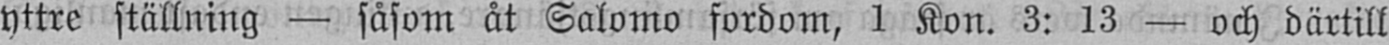yttre ställning — såsom åt Salomo fordom, 1 Kon. 3: 13 — och därtill
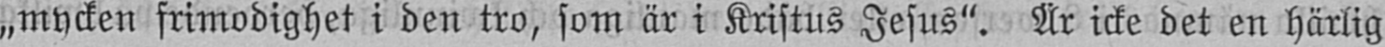„mycken frimodighet i den tro, som är i Kristus Jesus". Är icke det en härlig
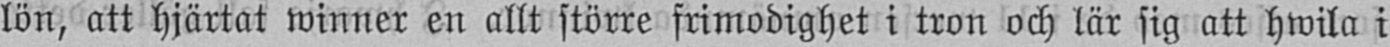lön, att hjärtat winner en allt större frimodighet i tron och lär sig att hwila i
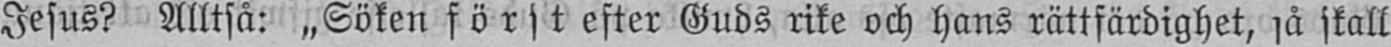Jesus? Alltså: „Söken först efter Guds rike och hans rättfärdighet, så skall
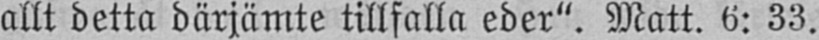allt detta därjämte tillfalla eder". Matt. 6: 33.
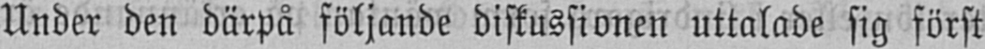Under den därpå följande diskussionen uttalade sig först
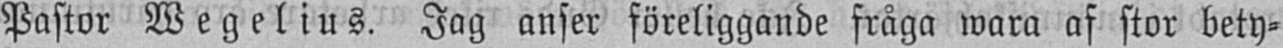Pastor Wegelius. Jag anser föreliggande fråga wara af stor bety-
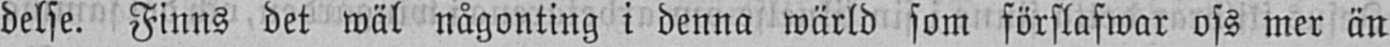delse. Finns det wäl någonting i denna wärld som förslafwar oss mer än
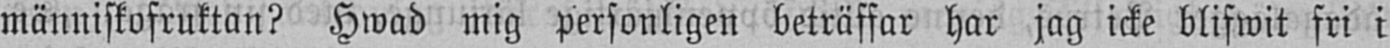människofruktan? Hwad mig personligen beträffar har jag icke blifwit fri i
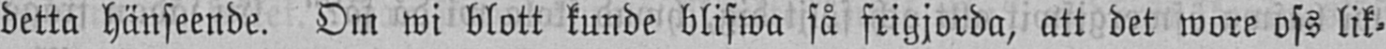detta hänseende. Om wi blott kunde blifwa så frigjorda, att det wore oss lik-
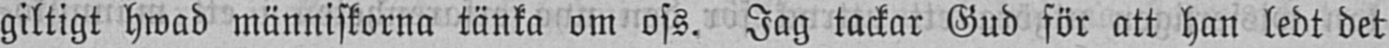giltigt hwad människorna tänka om oss. Jag tackar Gud för att han ledt det
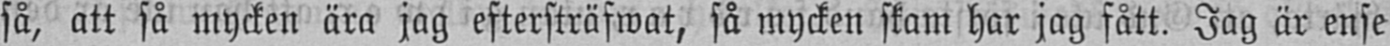så, att så mycken ära jag eftersträfwat, så mycken skam har jag fått. Jag är ense
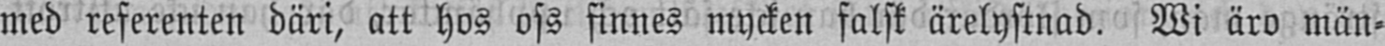med referenten däri, att hos oss finnes mycken falsk ärelystnad. Wi äro män-
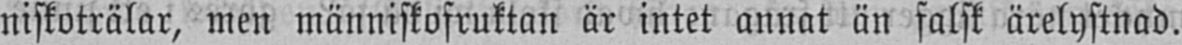niskoträlar, men människofruktan är intet annat än falsk ärelystnad.
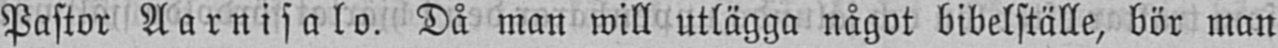Pastor Aarnisalo. Då man will utlägga något bibelställe, bör man
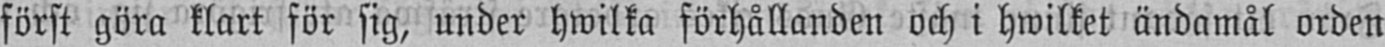först göra klart för sig, under hwilka förhållanden och i hwilket ändamål orden
